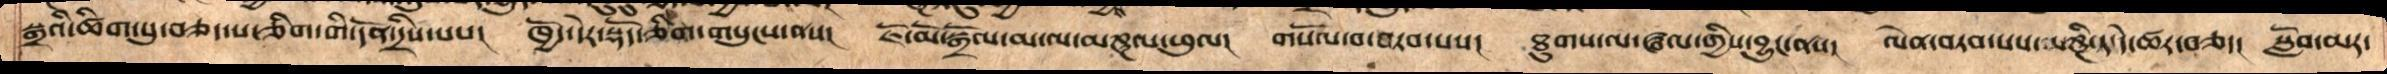སྒྲའི་ཚིག་སུ་བཅད་པ་ཅིག་གི་དོན་དྲིས་པས།   ཁྱོད་དེར་སྡོད་ཅིག་གསུངས་ནས།   ཇོ་མོ་སྒྲོལ་མ་ལ་མཎྜལ་ཕུལ།  གསོལ་བ་བཏབ་པས།  ཐུགས་ལ་ཝལ་གྱིས་བྱུང་ནས།  ལེན་བཏབ་པས་པཎྜི་ཏ་དེ་ཚར་བཅད།   སློབ་མར་
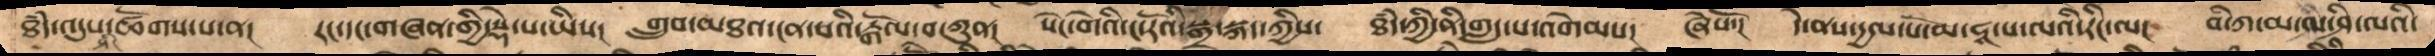ཐཾད་འདུས་ཤིང་ཚོགས་པ་ན།   རང་དང་གཞན་གྱི་སྡེ་པ་ཡི།   གྲུབ་མཐའ་ངན་པའི་རྒོལ་བ་ཀུན།  སེང་གེའི་ང་རོའི་སྒྲ་སྐད་ཀྱིས།  ཐཾད་ཀྱི་ནི་གླད་པ་འགེམས།   ཞེསོ་།   དེ་ནས་དྱལ་པོ་མ་ཧཱ་པ་ལའི་རིང་ལ།  བི་ཀ་མ་ཤི་ལའི་
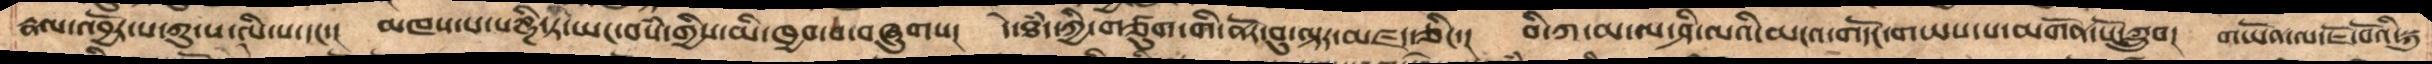རྣལ་འབྱོར་པ་ཀུ་ས་ལི་ས་དང་།   མཁས་པ་པཎྜི་ཏི་ཡང་བསཾ་གྱིས་མི་ཁྱབ་པ་བཞུགས།   དེ་ཐཾད་ཀྱི་གཙུག་གི་ནོར་བུ་ལྟར་འཛད་ཅིང་།  བི་ཀ་མ་ལ་ཤི་ལའི་མངའ་གདོང་གཡས་པ་མགོན་པོ་ཀླྲུབ།  གཡོན་ལ་ཇོ་བོའི་སྐུ
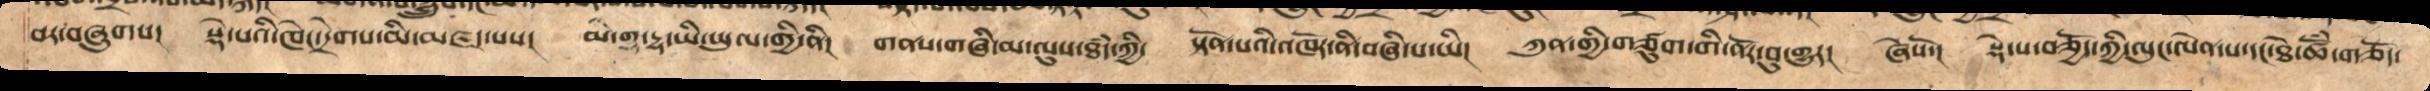བར་བཞུགས།  སྡེ་པའི་ཁེང་དྲེགས་མི་མཛད་པས།  མ་གྷ་དྷ་ཡི་ཡུལ་གྱི་ནི།  གནས་གཞི་མ་ལུས་ཐཾད་ཀྱི།   སྟོན་པའི་འཁོར་ནི་བཞི་པ་ཡི།   ཀུན་གྱི་གཙུག་གི་ནོར་བུ་གྱུར།  ཞེསོ་།  སྡེ་པ་བཅྱོད་ཀྱི་ལུང་ལེན་པ་དང་ཐེ་ཚོཾ་གཅོད་
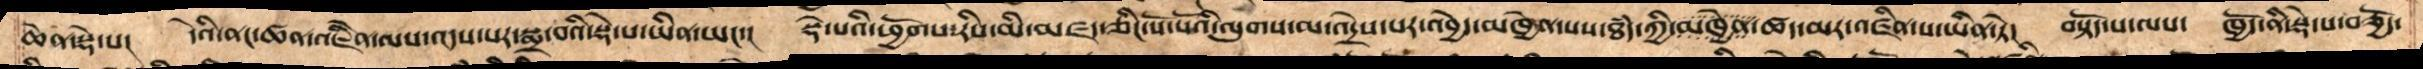ཆེན་སྡེ་པ།   དེའི་ནང་ཚན་འཇིེན་ལས་འདས་པར་སྨྲ་བའི་སྡེ་པ་ཡིན་ཡང་།   སྡེ་པའི་ཕྱོགས་རིས་མི་མཛད་ཅིང་སོ་སོའི་ལུགས་མ་འདྲེས་པར་འབྱེད་མཁྱེན་པས་ཐཾད་ཀྱི་མཁྱེན་ཚད་མར་འཛིན་པ་ཡིན་ཏེ།  བསྟོད་པ་ལས།  ཁྱོད་ནི་སྡེ་པ་བཅྱོད་
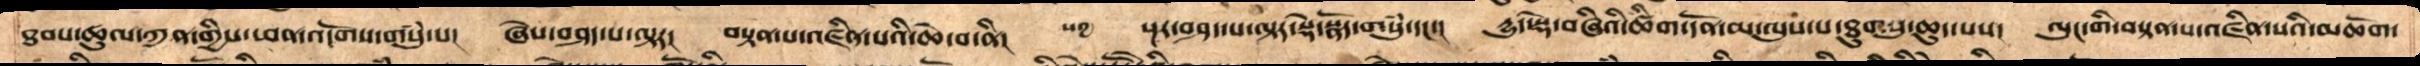ཐབས་ཚུལ་ཀུན་གྱིས་ཕན་འདོགས་གསུཾ་པ།  ཞེས་བཤད་པ་ལྟར།  བསྟན་པ་འཛིན་པའི་ཆེ་བ་ནི།  ༥༧  སྔར་བཤད་པ་ལྟར་སྡེ་སྣོད་གསུཾ་དང་།   དྱུད་སྡེ་བཞིའི་ཚིག་དོན་མ་ལུས་པ་ཐུགསུ་ཆུད་པས།   ལུང་གི་བསྟན་པ་འཛིན་པའི་མཆོག་
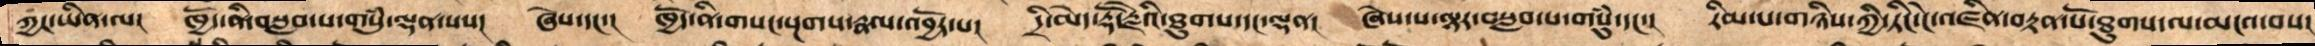ཀྱང་ཡིན་ལ།     ཁྱོད་ནི་བསླབ་པ་གསུཾ་ལྡན་པས།   ཞེས་དང་།  ཁྱོད་ནི་གསང་སྔགས་རྣལ་འབྱོར་པ།  དྲི་མེད་རྡོ་རྗེའི་ཐུགས་དང་ལྡན།   ཞེས་པ་ལྟར་བསླབ་པ་གསུཾ་དང་།    རིམ་པ་གཉིས་ཀྱི་ཏིང་ངེ་འཛིན་བརྟན་པོ་ཐུགས་ལ་མངའ་བས།
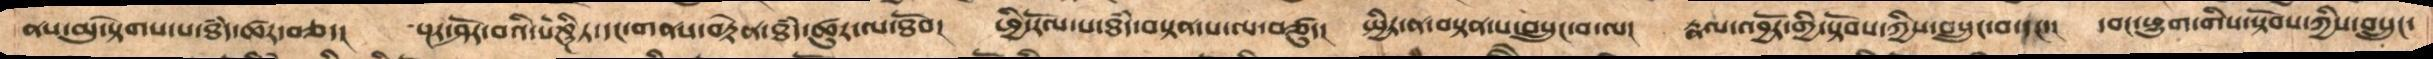ནས་མུ་སྟེགས་པ་ཐཾད་ཚར་བཅད།   སྔར་ཤོར་བའི་པཎྜི་ཏ་དང་གནས་བརྟེན་ཐཾད་ཚུར་ལ་ཐོབ།   ཕྱི་རོལ་པ་ཐཾད་བསྟན་པ་ལ་བཙུད།  སྤྱིར་ན་བསྟན་པ་བསྲུང་བ་ལ།   རྣལ་འབྱོར་གྱི་སྟོབས་ཀྱིས་བསྲུང་བ་དང་།  དབང་ཕྱུག་གིས་སྟོབས་ཀྱིས་བསྲུང་
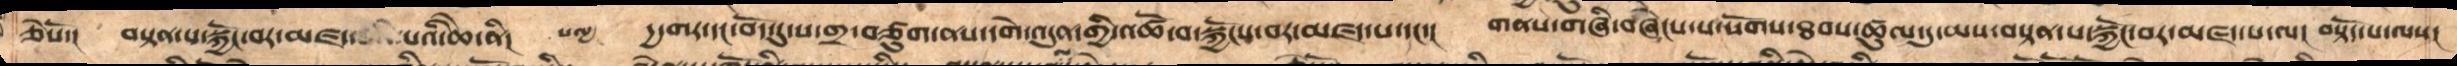ཅེསོ་།   བསྟན་པ་སྐྱོང་བར་མཛད་པའི་ཆེ་ནི།  ༥༧ དྱ་གར་དང་བོད་དུ་ས་གྲ་བཙུག་ནས་དགེ་འདུན་གྱི་འཚོ་བ་སྐྱོངས་བར་མཛད་པ་དང་།  གནས་གཞི་བཞེངས་པ་སོགས་ཐབས་ཚུལ་དུ་མས་བསྟན་པ་སྐྱོང་བར་མཛད་པ་ལ། བསྟོད་པ་ལས།
